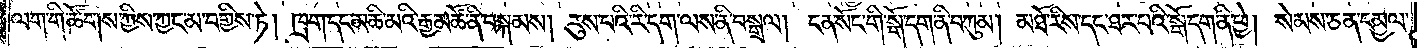ལག་གི་ཚོགས་ཀྱིས་ཀྱང་མ་བགྱིས་ཏེ། ཁྲག་དང་མཆི་མའི་རྒྱ་མཚོ་ནི་བསྐམས། རུས་པའི་རི་དག་ལས་ནི་བསྒྲལ། ངན་སོང་གི་སྒོ་དག་ནི་བཀུམ། མཐོ་རིས་དང་ཐར་པའི་སྒོ་དག་ནི་ཕྱེ། སེམས་ཅན་དམྱལ་
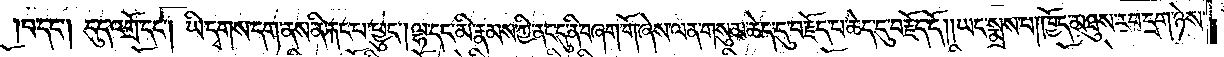བ་དང༌། དུད་འགྲོ་དང༌། ཡི་དྭགས་དག་ནས་ནི་རྐང་པ་ཕྱུང༌། ལྷ་དང་མི་རྣམས་ཀྱི་ནང་དུ་ནི་བཞག་གོ་ཞེས་ལན་གསུམ་ཆེད་དུ་བརྗོད་པ་ཆེད་དུ་བརྗོད་དོ། །ཡང་སྨྲས་པ། ཁྱོད་མཐུས་རབ་དྲག་ཉེས་
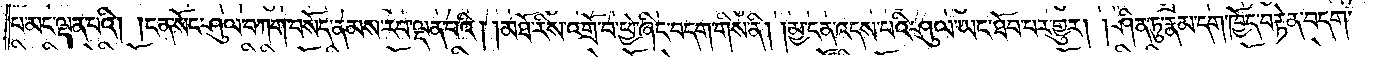པ་མང་ལྡན་པའི། །ངན་སོང་ཤུལ་བཀག་བསོད་ནམས་རབ་ལྡན་པའི། །མཐོ་རིས་འགྲོ་བ་ཕྱེ་ཞིང་བདག་གིས་ནི། །མྱ་ངན་འདས་པའི་ཤུལ་ཡང་ཐོབ་པར་གྱུར། །ཤིན་ཏུ་རྣམ་དག་ཁྱོད་བརྟེན་བདག་
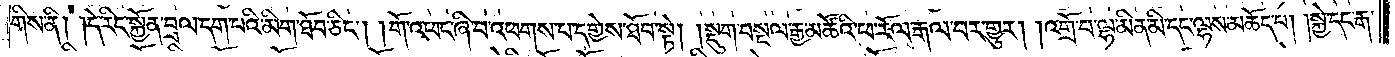གིས་ནི། །དེ་རིང་སྐྱོན་བྲལ་དག་པའི་མིག་ཐོབ་ཅིང༌། །གོ་འཕང་ཞི་བ་འཕགས་པ་དགྱེས་ཐོབ་སྟེ། །སྡུག་བསྔལ་རྒྱ་མཚོའི་ཕ་རོལ་རྒལ་བར་གྱུར། །འགྲོ་བ་ལྷ་མིན་མི་དང་ལྷས་མཆོད་པ། །སྐྱེ་དང་རྒ་
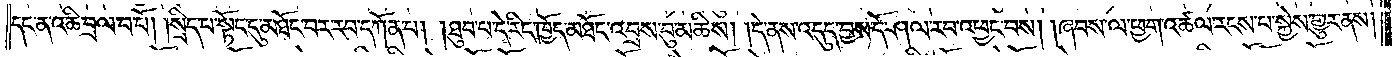དང་ན་འཆི་བྲལ་བ་པོ། །སྲིད་པ་སྟོང་དུ་མཐོང་བར་རབ་དཀོན་པ། །ཐུབ་པ་དེ་རིང་ཁྱོད་མཐོང་འབྲས་བུ་མཆིས། །དེ་ནས་འདུད་བྱས་དོ་ཤལ་རབ་འཕྱང་བས། །ཞབས་ལ་ཕྱག་འཚལ་རངས་པ་སྐྱེས་གྱུར་ནས།
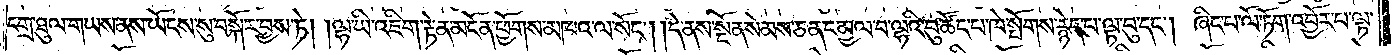དགྲ་ཐུལ་གཡས་ནས་ཡོངས་སུ་བསྐོར་བྱས་ཏེ། །ལྷ་ཡི་འཇིག་རྟེན་མངོན་ཕྱོགས་མཁའ་ལ་སོང༌། །དེ་ནས་སྔོན་སེམས་ཅན་དམྱལ་བ་ལྷའི་བུ་ཚོང་པ་ཁེ་སྤོགས་རྙེད་པ་ལྟ་བུ་དང༌། ཞིང་པ་ལོ་ཏོག་འབྱོར་བ་ལྟ་
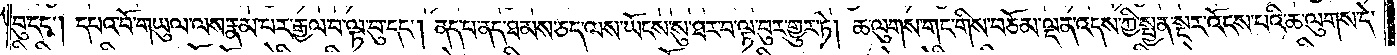བུ་དང༌། དཔའ་བོ་གཡུལ་ལས་རྣམ་པར་རྒྱལ་བ་ལྟ་བུ་དང༌། ནད་པ་ནད་ཐམས་ཅད་ལས་ཡོངས་སུ་ཐར་བ་ལྟ་བུར་གྱུར་ཏེ། ཆ་ལུགས་གང་གིས་བཅོམ་ལྡན་འདས་ཀྱི་སྤྱན་སྔར་འོངས་པའི་ཆ་ལུགས་དེ་
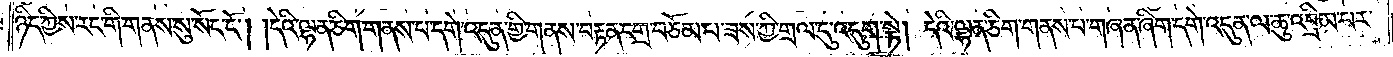ཉིད་ཀྱིས་རང་གི་གནས་སུ་སོང་ངོ༌། །དེའི་ལྷན་ཅིག་གནས་པ་དགེ་འདུན་གྱི་གནས་བརྟན་དགྲ་བཅོམ་པ་ཟས་ཀྱི་གྲལ་དུ་འདུག་སྟེ། དེའི་ལྷན་ཅིག་གནས་པ་གཞན་ཞིག་དགེ་འདུན་ལ་ཆུ་འབྲིམ་པར་
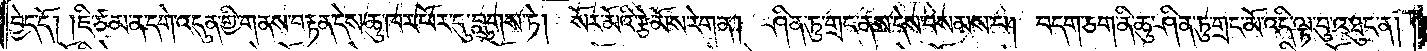བྱད་དོ། །ཇི་ཙམ་ན་དགེ་འདུན་གྱི་གནས་བརྟན་དེས་ཆུ་ཁར་ཕོར་དུ་བླུགས་ཏེ། སོར་མོའི་རྩེ་མོས་རེག་ན། ཤིན་ཏུ་གྲང་ནས་དེས་བསམས་པ། བདག་ཅག་ནི་ཆུ་ཤིན་ཏུ་གྲང་མོ་འདི་ལྟ་བུ་འཐུང་ན།
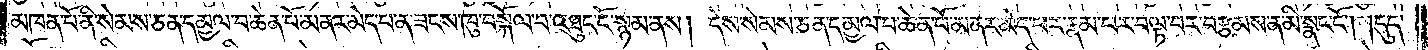མཁན་པོ་ནི་སེམས་ཅན་དམྱལ་བ་ཆེན་པོ་མནར་མེད་པ་ན་ཟངས་ཁུ་བསྐོལ་བ་འཐུང་ངོ་སྙམ་ནས། དེས་སེམས་ཅན་དམྱལ་བ་ཆེན་པོ་མནར་མེད་པར་རྣམ་པར་བལྟ་བར་བརྩམས་ན་མི་སྣང་ངོ༌། །དུད་
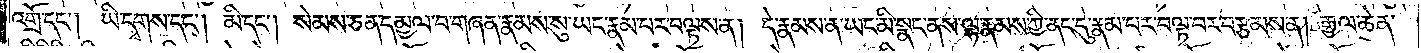འགྲོ་དང༌། ཡི་དྭགས་དང༌། མི་དང༌། སེམས་ཅན་དམྱལ་བ་གཞན་རྣམས་སུ་ཡང་རྣམ་པར་བལྟས་ན། དེ་རྣམས་ན་ཡང་མི་སྣང་ནས་ལྷ་རྣམས་ཀྱི་ནང་དུ་རྣམ་པར་བལྟ་བར་བརྩམས་ན། རྒྱལ་ཆེན་
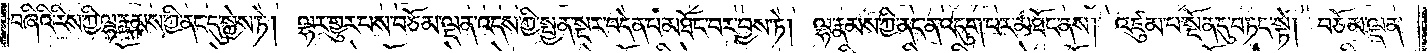བཞིའི་རིས་ཀྱི་ལྷ་རྣམས་ཀྱི་ནང་དུ་སྐྱེས་ཏེ། ལྷར་གྱུར་པས་བཅོམ་ལྡན་འདས་ཀྱི་སྤྱན་སྔར་བདེན་པ་མཐོང་བར་བྱས་ཏེ། ལྷ་རྣམས་ཀྱི་ནང་ན་འདུག་པར་མཐོང་ནས། འཛུམ་པ་སྔོན་དུ་བཏང་སྟེ། བཅོམ་ལྡན་
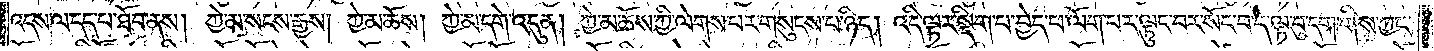འདས་ལ་དད་པ་ཐོབ་ནས། ཀྱེ་མ་སངས་རྒྱས། ཀྱེ་མ་ཆོས། ཀྱེ་མ་དགེ་འདུན། ཀྱེ་མ་ཆོས་ཀྱི་ལེགས་པར་གསུངས་པ་ཉིད། འདི་ལྟར་སྡིག་པ་བྱེད་པ་ལོག་པར་ལྟུང་བར་སོང་བ་དེ་ལྟ་བུ་དག་གིས་ཀྱང་
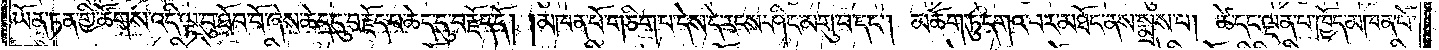ཡོན་ཏན་གྱི་ཚོགས་འདི་ལྟ་བུ་ཐོབ་བོ་ཞེས་ཆེད་དུ་བརྗོད་པ་ཆེད་དུ་བརྗོད་དོ། །མཁན་པོ་གཅིག་པ་དེས་དེ་རངས་ཤིང་མགུ་བ་དང༌། མཆོག་ཏུ་དགའ་བར་མཐོང་ནས་སྨྲས་པ། ཚེ་དང་ལྡན་པ་ཁྱོད་མཁན་པོ་
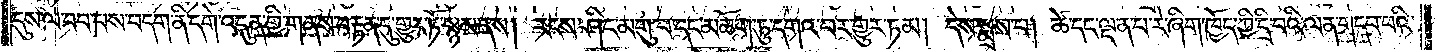དུས་ལ་བབ་པས་བདག་ནི་དགེ་འདུན་གྱི་གནས་བརྟན་དུ་གྱུར་ཏོ་སྙམ་ནས། རངས་ཤིང་མགུ་པ་དང་མཆོག་ཏུ་དགའ་བར་གྱུར་ཏམ། དེས་སྨྲས་པ། ཚེ་དང་ལྡན་པ་རེ་ཞིག་ཁྱོད་ཀྱི་དྲི་བའི་ལན་གདབ་པའི་
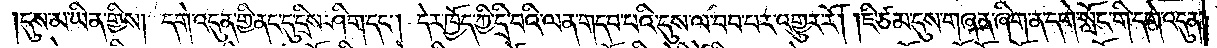དུས་མ་ཡིན་གྱིས། དགེ་འདུན་གྱི་ནང་དུ་དྲིས་ཤིག་དང༌། དེར་ཁྱོད་ཀྱི་དྲི་བའི་ལན་གདབ་པའི་དུས་ལ་བབ་པར་འགྱུར་རོ། །ཇི་ཙམ་དུས་གཞན་ཞིག་ན་དགེ་སློང་གི་དགེ་འདུན་
